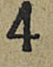4
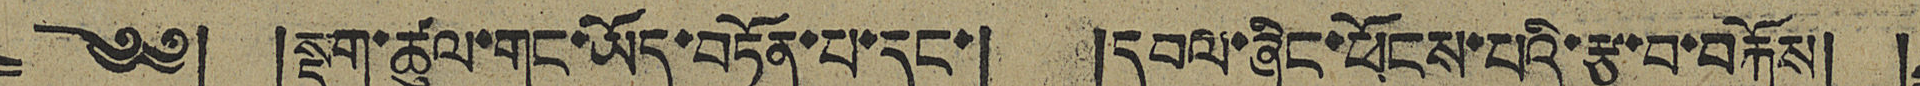༄༅། །སྡུག་ཚུལ་གང་ཡོད་བཏོན་པ་དང་། །དབུལ་ཞིང་ཕོངས་པའི་རྩ་བ་བརྐོས། །
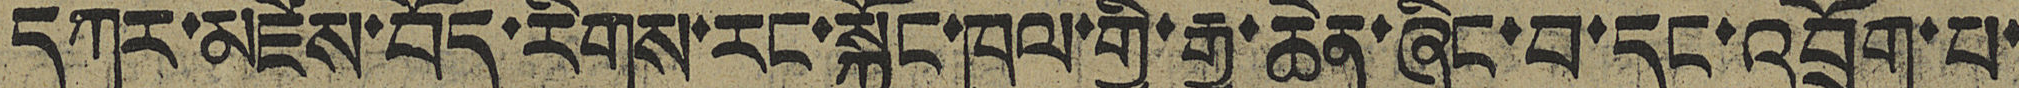དཀར་མཛེས་བོད་རིགས་རང་སྐྱོང་ཁུལ་གྱི་རྒྱ་ཆེན་ཞིང་བ་དང་འབྲོག་པ་
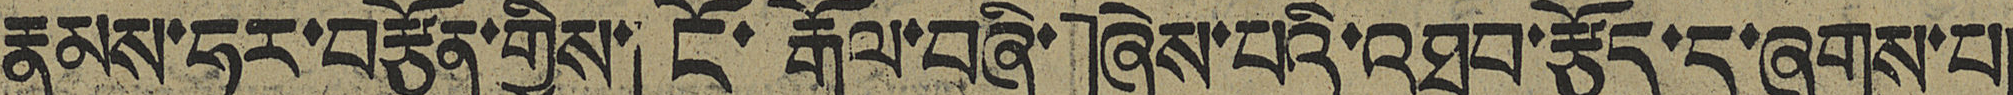རྣམས་ཧུར་བརྩོན་གྱིས་「ངོ་རྒོལ་བཞི་」ཞེས་པའི་འཐབ་རྩོད་དུ་ཞུགས་པ།
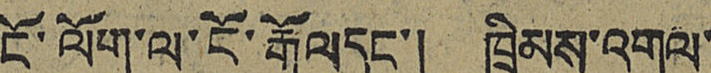ངོ་ལོག་ལ་ངོ་རྒོལ དང་། ཁྲིམས་འགལ་
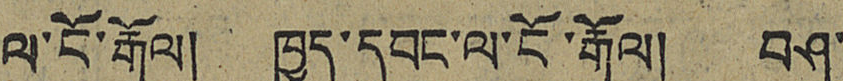ལ་ངོ་རྒོལ། ཁྱད་དབང་ལ་ངོ་རྒོལ། བཤུ་
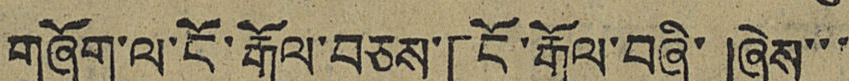གཞོག་ལ་ངོ་རྒོལ་བཅས་「ངོ་རྒོལ་བཞི་」ཞེས་་་
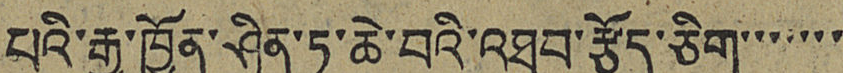པའི་རྒྱ་ཁྱོན་ཤིན་ཏུ་ཆེ་བའི་འཐབ་རྩོད་ཅིག་་་་་་་
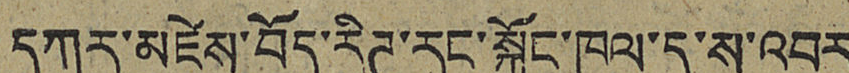དཀར་མཛེས་བོད་རིཊ་རང་སྐྱོང་ཁུལ་དུ་ས་འབར
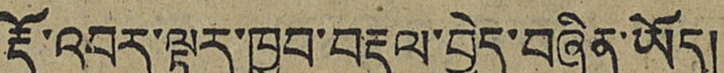རྡོ་འབར་ལྟར་ཁྱབ་བརྡལ་བྱེད་བཞིན་ཡོད།
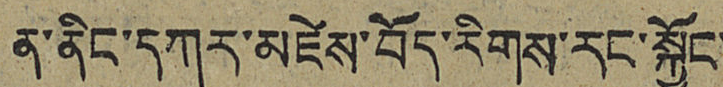ན་ནིང་དཀར་མཛེས་བོད་རིགས་རང་སྐྱོང་
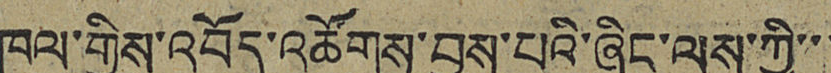ཁུལ་གྱིས་འབོད་འཚོགས་བྱས་པའི་ཞིང་ལས་ཀྱི་་་
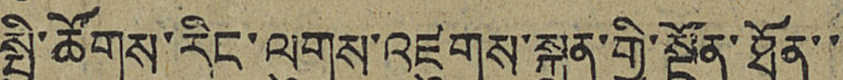སྤྱི་ཚོགས་རིང་ལུགས་འཛུགས་སྐྲུན་གྱི་སྔོན་ཐོན་་
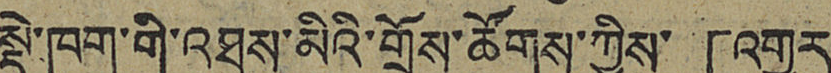སྡེ་ཁག་གི་འཐུས་མིའི་གྲོས་ཚོགས་ཀྱིས་「འགྱུར་
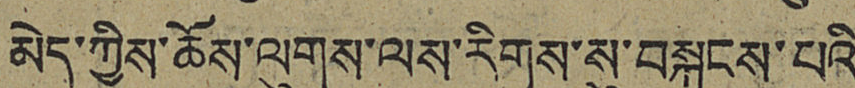མེད་ཀྱིས་ཆོས་ལུགས་ལས་རིགས་སུ་བསྐུངས་པའི
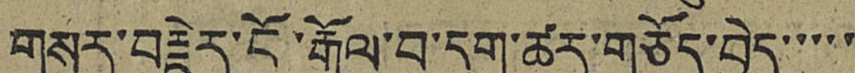གསར་བརྗེར་ངོ་རྒོལ་བ་དག་ཚར་གཅོད་བྱེད་་་་་
